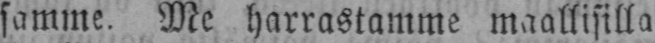same. Me harrastamme maallisilla
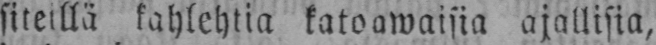siteillä kahlehtia katoawaisia ajallisia,
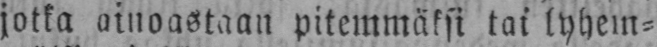jotka ainoastaan pitemmäksi tai lyhein-
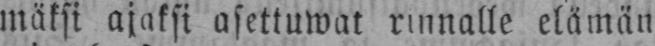mäksi ajaksi asettuwat rinnalle elämän
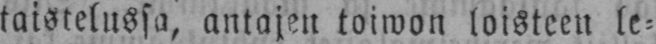taistelussa, antojen toiwon loisteen le-
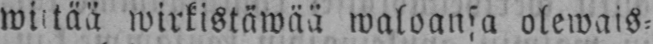viitää wirkistäwää waloansa olewais-
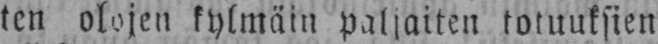ten olojen kylmäin paljaiten totuuksien
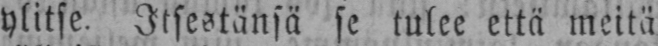ylitse. Itsestänsä se tulee että meitä
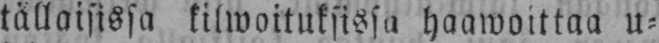tällaisissa kilwoituksissa haawoittaa u-
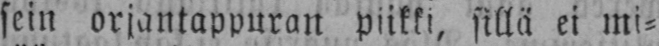sein orjantappuran Piikki, sillä ei mi-
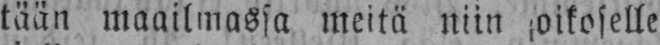tään maailmassa meitä niin oikoselle
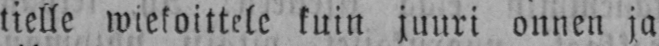tielle wiekoittele kuin juuri onnen ja
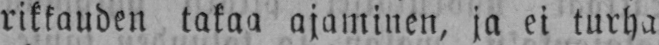rikkauden takaa ajaminen, ja ei turha
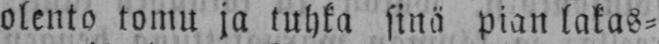olento tomu ja tuhka sinä pian lakas-
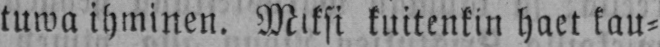tuwa ihminen. Miksi kuitenkin haet kau-
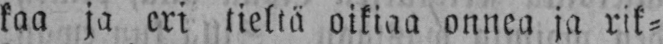kaa ja eri tiellä oikiaa onnea ja rik-
